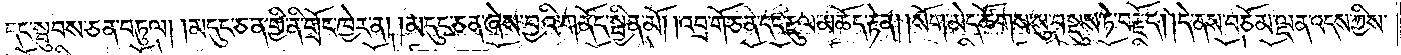དང་སྦུབས་ཅན་བཏུལ། །མདུང་ཅན་གྱི་ནི་གྲོང་ཁྱེར་ན། །མདུང་ཅན་ཞེས་བྱའི་གནོད་སྦྱིན་མོ། །འབྲ་གོ་ཅན་དང་རྡུལ་མཆོད་རྟེན། །སོག་མེད་ཚོགས་སུ་བསྡུས་ཏེ་བརྗོད། །དེ་ནས་བཅོམ་ལྡན་འདས་ཀྱིས་
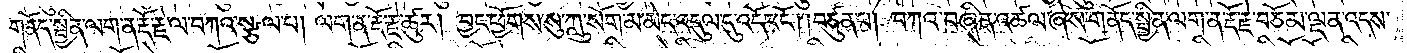གནོད་སྦྱིན་ལག་ན་རྡོ་རྗེ་ལ་བཀའ་སྩལ་པ། ལག་ན་རྡོ་རྗེ་ཚུར། བྱང་ཕྱོགས་སུ་ཀླུ་སོགས་མ་མེད་འདུལ་དུ་འདོང་ངོ༌། །བཙུན་པ། བཀའ་བཞིན་འཚལ་ཞེས་གནོད་སྦྱིན་ལག་ན་རྡོ་རྗེ་བཅོམ་ལྡན་འདས་
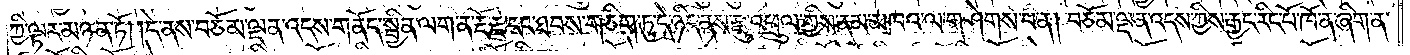ཀྱི་ལྟར་མཉན་ཏོ། །དེ་ནས་བཅོམ་ལྡན་འདས་གནོད་སྦྱིན་ལག་ན་རྡོ་རྗེ་དང་ཐབས་གཅིག་ཏུ་དེ་ཉིད་ནས་རྫུ་འཕྲུལ་གྱིས་ནམ་མཁའ་ལ་གཤེགས་པ་ན། བཅོམ་ལྡན་འདས་ཀྱིས་རྒྱང་རིང་པོ་ཁོ་ན་ཞིག་ན་
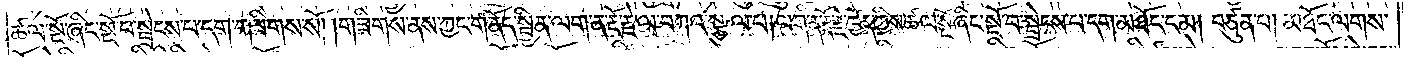ཚལ་སྔོ་ཞིང་སྔོ་བ་སྦྲེངས་པ་དག་གཟིགས་སོ། །གཟིགས་ནས་ཀྱང་གནོད་སྦྱིན་ལག་ན་རྡོ་རྗེ་ལ་བཀའ་སྩལ་པ། ལག་ན་རྡོ་རྗེ་ཁྱོད་ཀྱིས་ཚལ་སྔོ་ཞིང་སྔོ་བ་སྦྲེངས་པ་དག་མཐོང་ངམ། བཙུན་པ། མཐོང་ལགས་
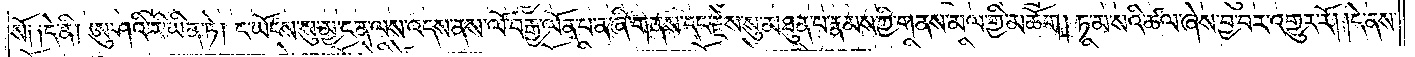སོ། །དེ་ནི། ཨུ་ཤའི་རི་ཡིན་ཏེ། ང་ཡོངས་སུ་མྱ་ངན་ལས་འདས་ནས་ལོ་བརྒྱ་ལོན་པ་ན་ཞི་གནས་དང་རྗེས་སུ་མཐུན་པ་རྣམས་ཀྱི་གནས་མལ་གྱི་མཆོག །ཏ་མ་སའི་ཚལ་ཞེས་བྱ་བར་འགྱུར་རོ། །དེ་ནས་
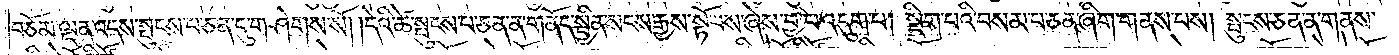བཅོམ་ལྡན་འདས་སྤུངས་པ་ཅན་དུ་གཤེགས་སོ། །དེའི་ཚེ་སྤུངས་པ་ཅན་ན་གནོད་སྦྱིན་སངས་རྒྱས་སྟོབས་ཞེས་བྱ་བ་འདུག་པ། སྡིག་པའི་བསམ་པ་ཅན་ཞིག་གནས་པས། སྤུངས་ཅན་ན་གནས་
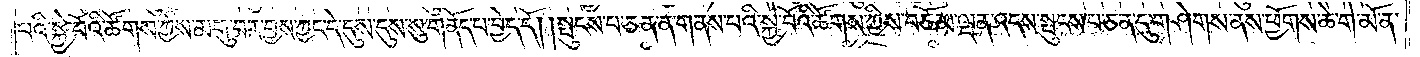པའི་སྐྱེ་བོའི་ཚོགས་ཀྱིས་མགུ་བར་བྱས་ཀྱང་དེ་དུས་དུས་སུ་གནོད་པ་བྱེད་དོ། །སྤུངས་པ་ཅན་ན་གནས་པའི་སྐྱེ་བོའི་ཚོགས་ཀྱིས་བཅོམ་ལྡན་འདས་སྤུངས་པ་ཅན་དུ་གཤེགས་ནས་ཕྱོགས་ཆེ་གེ་མོ་ན་
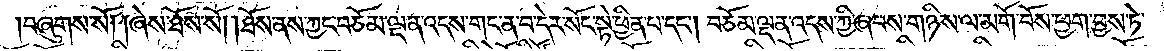བཞུགས་སོ། །ཞེས་ཐོས་སོ། །ཐོས་ནས་ཀྱང་བཅོམ་ལྡན་འདས་གང་ན་བ་དེར་སོང་སྟེ་ཕྱིན་པ་དང༌། བཅོམ་ལྡན་འདས་ཀྱི་ཞབས་གཉིས་ལ་མགོ་བོས་ཕྱག་བྱས་ཏེ་
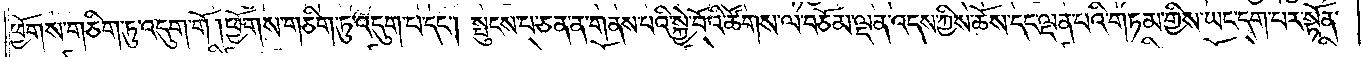ཕྱོགས་གཅིག་ཏུ་འདུག་གོ །ཕྱོགས་གཅིག་ཏུ་འདུག་པ་དང༌། སྤུངས་པ་ཅན་ན་གནས་པའི་སྐྱེ་བོའི་ཚོགས་ལ་བཅོམ་ལྡན་འདས་ཀྱིས་ཆོས་དང་ལྡན་པའི་གཏམ་གྱིས་ཡང་དག་པར་སྟོན་
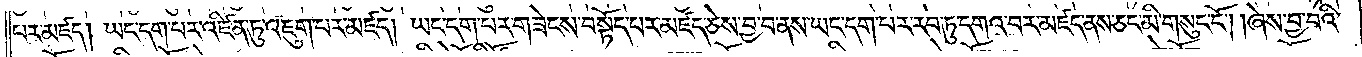པར་མཛད། ཡང་དག་པར་འཛིན་ཏུ་འཇུག་པར་མཛད། ཡང་དག་པར་གཟེངས་བསྟོད་པར་མཛད་ཅེས་བྱ་བ་ནས་ཡང་དག་པར་རབ་ཏུ་དགའ་བར་མཛད་ནས་ཅང་མི་གསུང་ངོ༌། །ཞེས་བྱ་བའི་
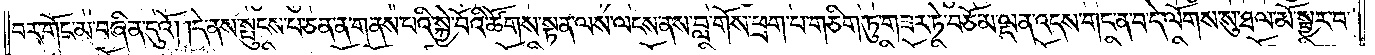བར་གོང་མ་བཞིན་དུའོ། །དེ་ནས་སྤུངས་པ་ཅན་ན་གནས་པའི་སྐྱེ་བོའི་ཚོགས་སྟན་ལས་ལངས་ནས་བླ་གོས་ཕྲག་པ་གཅིག་ཏུ་གཟར་ཏེ་བཅོམ་ལྡན་འདས་གང་ན་བ་དེ་ལོགས་སུ་ཐལ་མོ་སྦྱར་བ་
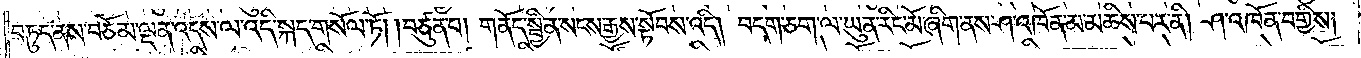བཏུད་ནས་བཅོམ་ལྡན་འདས་ལ་འདི་སྐད་གསོལ་ཏོ། །བཙུན་པ། གནོད་སྦྱིན་སངས་རྒྱས་སྟོབས་འདི། བདག་ཅག་ལ་ཡུན་རིང་མོ་ཞིག་ནས་ཤ་འཁོན་མ་མཆིས་པར་ནི། ཤ་འཁོན་བགྱིས།
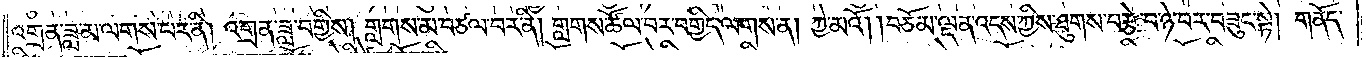འགྲན་ཟླ་མ་ལགས་པར་ནི། འགྲན་ཟླ་བགྱིས། གླགས་མ་བཙལ་བར་ནི། གླགས་ཚོལ་བར་བགྱིད་ལགས་ན། ཀྱེ་མའོ། །བཅོམ་ལྡན་འདས་ཀྱིས་ཐུགས་བརྩེ་བ་ཉེ་བར་བཟུང་སྟེ། གནོད་
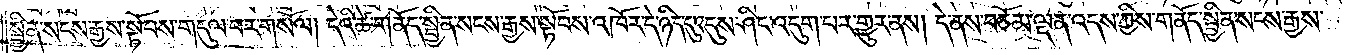སྦྱིན་སངས་རྒྱས་སྟོབས་གདུལ་བར་གསོལ། དེའི་ཚེ་གནོད་སྦྱིན་སངས་རྒྱས་སྟོབས་འཁོར་དེ་ཉིད་དུ་འདུས་ཤིང་འདུག་པར་གྱུར་ནས། དེ་ནས་བཅོམ་ལྡན་འདས་ཀྱིས་གནོད་སྦྱིན་སངས་རྒྱས་
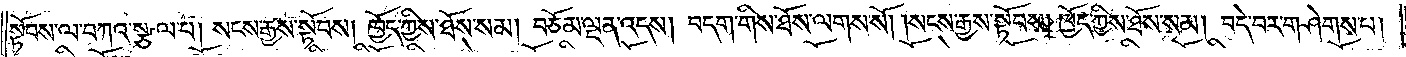སྟོབས་ལ་བཀའ་སྩལ་པ། སངས་རྒྱས་སྟོབས། ཁྱོད་ཀྱིས་ཐོས་སམ། བཅོམ་ལྡན་འདས། བདག་གིས་ཐོས་ལགས་སོ། །སངས་རྒྱས་སྟོབས། ཁྱོད་ཀྱིས་ཐོས་སམ། བདེ་བར་གཤེགས་པ།
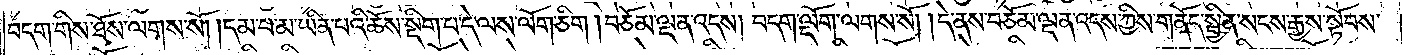བདག་གིས་ཐོས་ལགས་སོ། །དམ་པ་མ་ཡིན་པའི་ཆོས་སྡིག་པ་དེ་ལས་ལོག་ཅིག །བཅོམ་ལྡན་འདས། བདག་ལྡོག་ལགས་སོ། །དེ་ནས་བཅོམ་ལྡན་འདས་ཀྱིས་གནོད་སྦྱིན་སངས་རྒྱས་སྟོབས་
